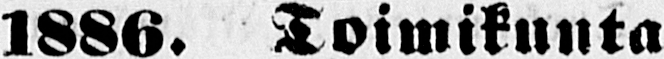1886. Toimikunta
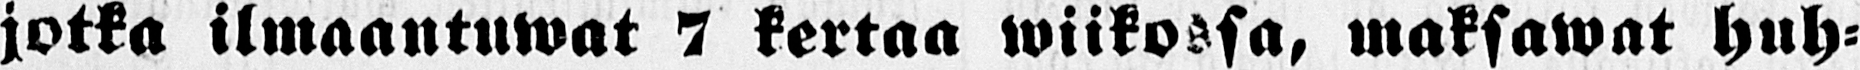jotka ilmaantuwat 7 kertaa wiikossa, maksamat huh-
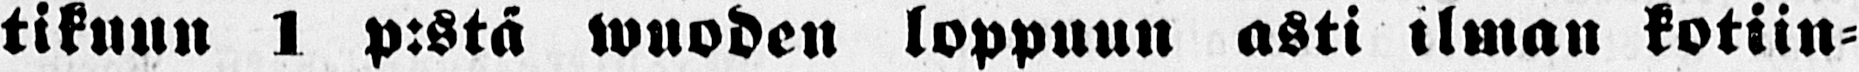tikuun 1 p:stä Wuoden loppuun asti ilman kotiin-
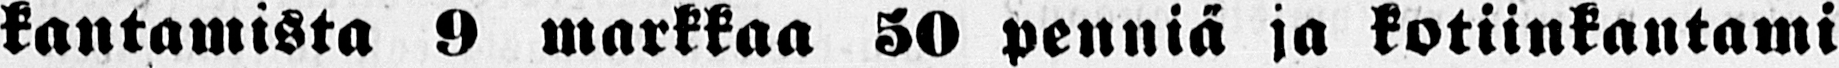kantamista 9 markkaa 50 penniä ja kotiinkantami-
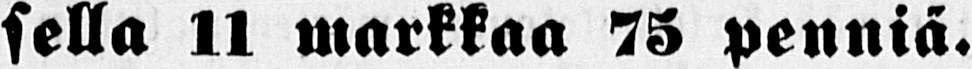sella 11 markkaa 75 penniä.
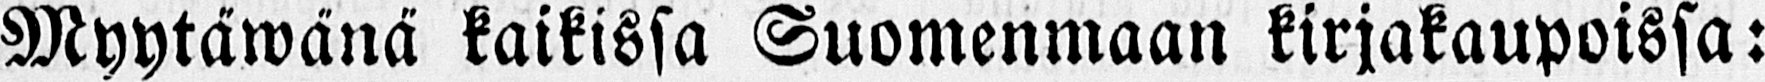Myytäwänä kaikissa Suomenmaan kirjakaupoissa:
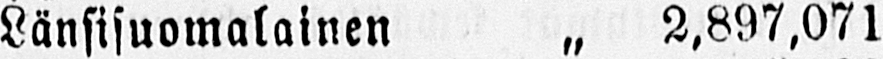Länsisuomalainen „2,897,071
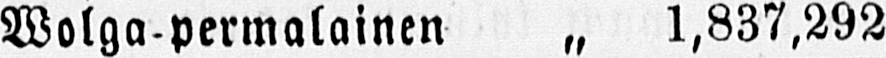Volga-permalainen „1,837,292
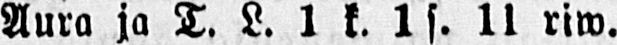Aura ja T. L. 1 k. 1s. 11 riw.
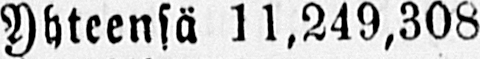Yhteensä 11,249,308
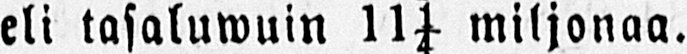eli tasaluwuin miljonaa.
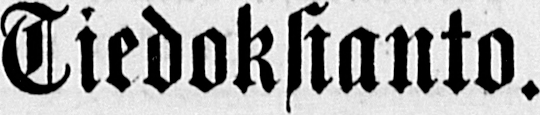Tiedoksianto.
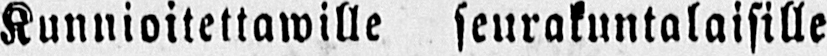Kunnioitettawille seurakuntalaisille
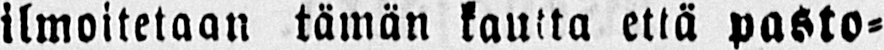ilmoitetaan tämän kautta että pasto-
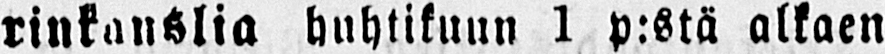rinkanslia huhtikuun 1 p:stä alkaen
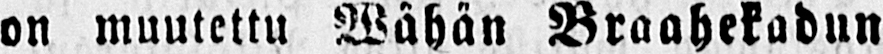on muutettu Wähän Braahekadun
